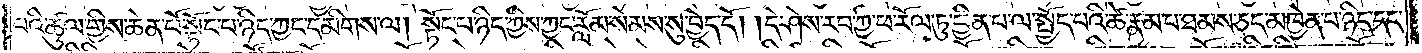པའི་ཚུལ་གྱིས་ཆེན་པོ་སྟོང་པ་ཉིད་ཀྱང་དམིགས་ལ། སྟོང་པ་ཉིད་ཀྱིས་ཀྱང་རློམ་སེམས་སུ་བྱེད་དོ། །དེ་ཤེས་རབ་ཀྱི་ཕ་རོལ་ཏུ་ཕྱིན་པ་ལ་སྤྱོད་པའི་ཚེ་རྣམ་པ་ཐམས་ཅད་མཁྱེན་པ་ཉིད་དང་
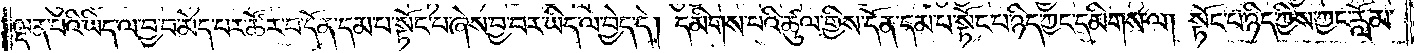ལྡན་པའི་ཡིད་ལ་བྱ་བ་མེད་པར་ཚོར་བ་དོན་དམ་པ་སྟོང་པ་ཞེས་བྱ་བར་ཡིད་ལ་བྱེད་དེ། དམིགས་པའི་ཚུལ་གྱིས་དོན་དམ་པ་སྟོང་པ་ཉིད་ཀྱང་དམིགས་ལ། སྟོང་པ་ཉིད་ཀྱིས་ཀྱང་རློམ་
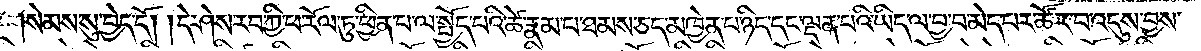སེམས་སུ་བྱེད་དོ། །དེ་ཤེས་རབ་ཀྱི་ཕ་རོལ་ཏུ་ཕྱིན་པ་ལ་སྤྱོད་པའི་ཚེ་རྣམ་པ་ཐམས་ཅད་མཁྱེན་པ་ཉིད་དང་ལྡན་པའི་ཡིད་ལ་བྱ་བ་མེད་པར་ཚོར་བ་འདུས་བྱས་
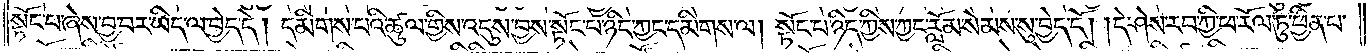སྟོང་པ་ཞེས་བྱ་བར་ཡིད་ལ་བྱེད་དེ། དམིགས་པའི་ཚུལ་གྱིས་འདུས་བྱས་སྟོང་པ་ཉིད་ཀྱང་དམིགས་ལ། སྟོང་པ་ཉིད་ཀྱིས་ཀྱང་རློམ་སེམས་སུ་བྱེད་དོ། །དེ་ཤེས་རབ་ཀྱི་ཕ་རོལ་ཏུ་ཕྱིན་པ་
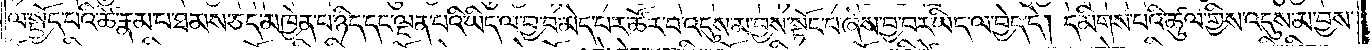ལ་སྤྱོད་པའི་ཚེ་རྣམ་པ་ཐམས་ཅད་མཁྱེན་པ་ཉིད་དང་ལྡན་པའི་ཡིད་ལ་བྱ་བ་མེད་པར་ཚོར་བ་འདུས་མ་བྱས་སྟོང་པ་ཞེས་བྱ་བར་ཡིད་ལ་བྱེད་དེ། དམིགས་པའི་ཚུལ་གྱིས་འདུས་མ་བྱས་
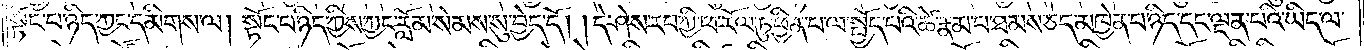སྟོང་པ་ཉིད་ཀྱང་དམིགས་ལ། སྟོང་པ་ཉིད་ཀྱིས་ཀྱང་རློམ་སེམས་སུ་བྱེད་དོ། །དེ་ཤེས་རབ་ཀྱི་ཕ་རོལ་ཏུ་ཕྱིན་པ་ལ་སྤྱོད་པའི་ཚེ་རྣམ་པ་ཐམས་ཅད་མཁྱེན་པ་ཉིད་དང་ལྡན་པའི་ཡིད་ལ་
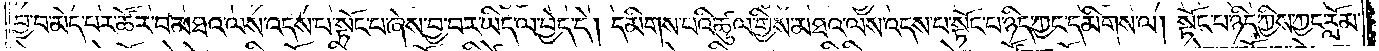བྱ་བ་མེད་པར་ཚོར་བ་མཐའ་ལས་འདས་པ་སྟོང་པ་ཞེས་བྱ་བར་ཡིད་ལ་བྱེད་དེ། དམིགས་པའི་ཚུལ་གྱིས་མཐའ་ལས་འདས་པ་སྟོང་པ་ཉིད་ཀྱང་དམིགས་ལ། སྟོང་པ་ཉིད་ཀྱིས་ཀྱང་རློམ་
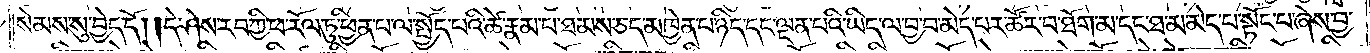སེམས་སུ་བྱེད་དོ། །དེ་ཤེས་རབ་ཀྱི་ཕ་རོལ་ཏུ་ཕྱིན་པ་ལ་སྤྱོད་པའི་ཚེ་རྣམ་པ་ཐམས་ཅད་མཁྱེན་པ་ཉིད་དང་ལྡན་པའི་ཡིད་ལ་བྱ་བ་མེད་པར་ཚོར་བ་ཐོག་མ་དང་ཐ་མ་མེད་པ་སྟོང་པ་ཞེས་བྱ་
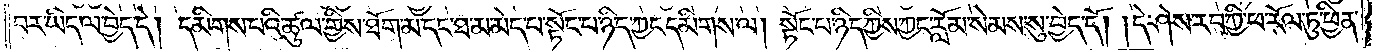བར་ཡིད་ལ་བྱེད་དེ། དམིགས་པའི་ཚུལ་གྱིས་ཐོག་མ་དང་ཐ་མ་མེད་པ་སྟོང་པ་ཉིད་ཀྱང་དམིགས་ལ། སྟོང་པ་ཉིད་ཀྱིས་ཀྱང་རློམ་སེམས་སུ་བྱེད་དོ། །དེ་ཤེས་རབ་ཀྱི་ཕ་རོལ་ཏུ་ཕྱིན་
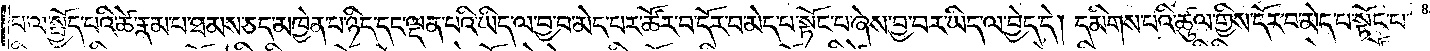པ་ལ་སྤྱོད་པའི་ཚེ་རྣམ་པ་ཐམས་ཅད་མཁྱེན་པ་ཉིད་དང་ལྡན་པའི་ཡིད་ལ་བྱ་བ་མེད་པར་ཚོར་བ་དོར་བ་མེད་པ་སྟོང་པ་ཞེས་བྱ་བར་ཡིད་ལ་བྱེད་དེ། དམིགས་པའི་ཚུལ་གྱིས་དོར་བ་མེད་པ་སྟོང་པ་
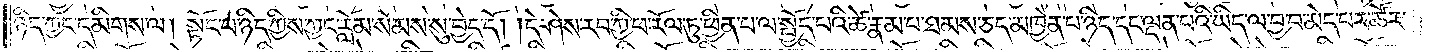ཉིད་ཀྱང་དམིགས་ལ། སྟོང་པ་ཉིད་ཀྱིས་ཀྱང་རློམ་སེམས་སུ་བྱེད་དོ། །དེ་ཤེས་རབ་ཀྱི་ཕ་རོལ་ཏུ་ཕྱིན་པ་ལ་སྤྱོད་པའི་ཚེ་རྣམ་པ་ཐམས་ཅད་མཁྱེན་པ་ཉིད་དང་ལྡན་པའི་ཡིད་ལ་བྱ་བ་མེད་པར་ཚོར་
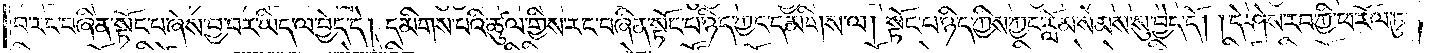བ་རང་བཞིན་སྟོང་པ་ཞེས་བྱ་བར་ཡིད་ལ་བྱེད་དེ། དམིགས་པའི་ཚུལ་གྱིས་རང་བཞིན་སྟོང་པ་ཉིད་ཀྱང་དམིགས་ལ། སྟོང་པ་ཉིད་ཀྱིས་ཀྱང་རློམ་སེམས་སུ་བྱེད་དོ། །དེ་ཤེས་རབ་ཀྱི་ཕ་རོལ་ཏུ་
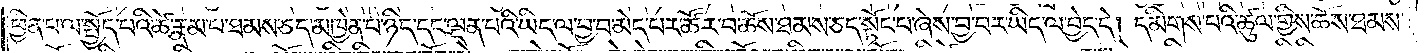ཕྱིན་པ་ལ་སྤྱོད་པའི་ཚེ་རྣམ་པ་ཐམས་ཅད་མཁྱེན་པ་ཉིད་དང་ལྡན་པའི་ཡིད་ལ་བྱ་བ་མེད་པར་ཚོར་བ་ཆོས་ཐམས་ཅད་སྟོང་པ་ཞེས་བྱ་བར་ཡིད་ལ་བྱེད་དེ། དམིགས་པའི་ཚུལ་གྱིས་ཆོས་ཐམས་
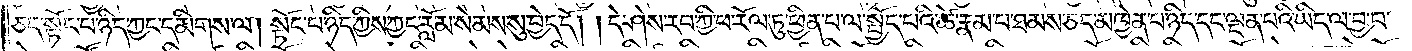ཅད་སྟོང་པ་ཉིད་ཀྱང་དམིགས་ལ། སྟོང་པ་ཉིད་ཀྱིས་ཀྱང་རློམ་སེམས་སུ་བྱེད་དོ། །དེ་ཤེས་རབ་ཀྱི་ཕ་རོལ་ཏུ་ཕྱིན་པ་ལ་སྤྱོད་པའི་ཚེ་རྣམ་པ་ཐམས་ཅད་མཁྱེན་པ་ཉིད་དང་ལྡན་པའི་ཡིད་ལ་བྱ་བ་
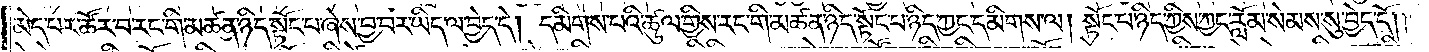མེད་པར་ཚོར་བ་རང་གི་མཚན་ཉིད་སྟོང་པ་ཞེས་བྱ་བར་ཡིད་ལ་བྱེད་དེ། དམིགས་པའི་ཚུལ་གྱིས་རང་གི་མཚན་ཉིད་སྟོང་པ་ཉིད་ཀྱང་དམིགས་ལ། སྟོང་པ་ཉིད་ཀྱིས་ཀྱང་རློམ་སེམས་སུ་བྱེད་དོ། །
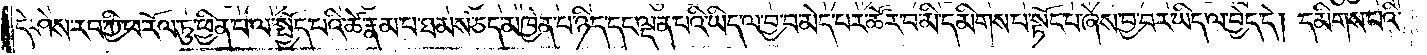དེ་ཤེས་རབ་ཀྱི་ཕ་རོལ་ཏུ་ཕྱིན་པ་ལ་སྤྱོད་པའི་ཚེ་རྣམ་པ་ཐམས་ཅད་མཁྱེན་པ་ཉིད་དང་ལྡན་པའི་ཡིད་ལ་བྱ་བ་མེད་པར་ཚོར་བ་མི་དམིགས་པ་སྟོང་པ་ཞེས་བྱ་བར་ཡིད་ལ་བྱེད་དེ། དམིགས་པའི་
